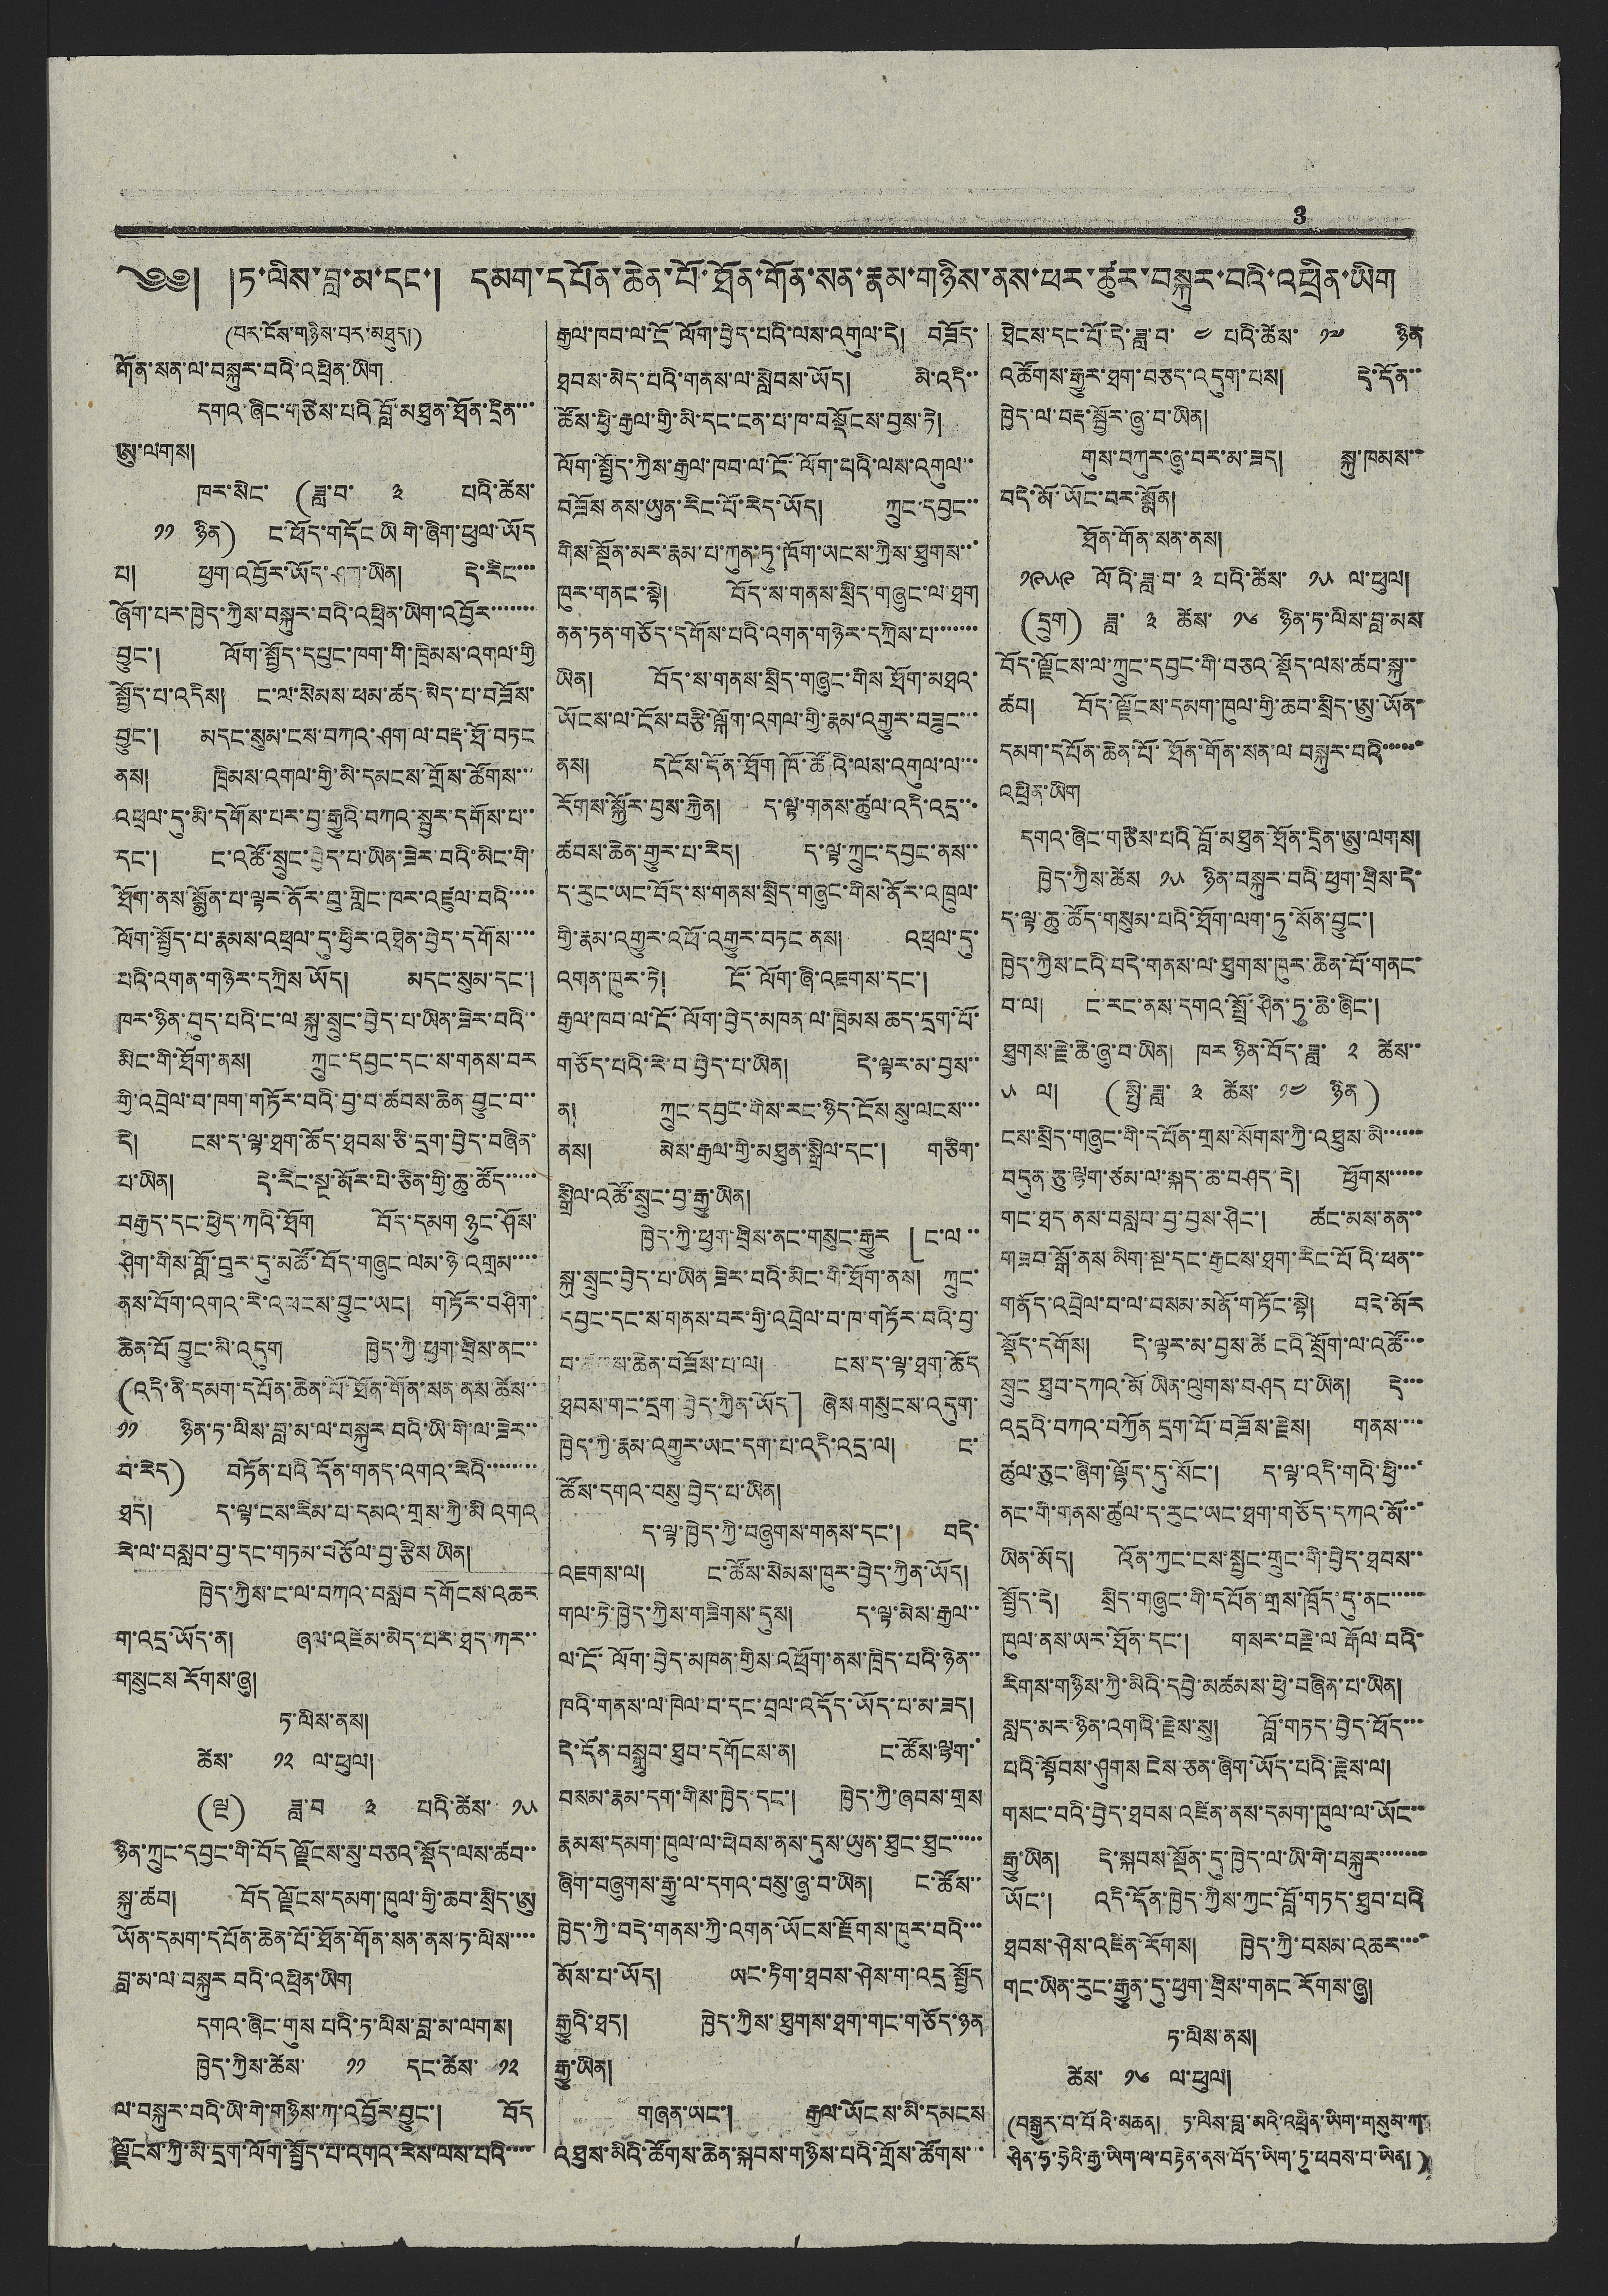3
༄༅། །ཏ་ལིས་བླ་མ་དང་། དམག་དཔོན་ཆེན་པོ་ཐོན་གོན་སན་རྣམ་གཉིས་ནས་ཕར་ཚུར་བསྐུར་བའི་འཕྲིན་ཡིག
(པར་ངོས་གཉིས་པར་མཐུད།)
གོན་སན་ལ་བསྐུར་བའི་འཕྲིན་ཡིག
དགའ་ཞིང་གཙེས་པའི བློ་མཐུན་ཐོན་དྲིན་་་
ཨུ་ལགས།
ཁར་སེང་ (ཟླ་བ་ ༣ པའི་ཚེས་
༡༡ ཉིན) ང་ཕོད་གདོང ཡི གེ་ཞིག་ཕུལ་ཡོད
པ། ཕྱག འབྱོར་ཡོད་ཤག་ཡིན། དེ་རིང་་་
ཞོག་པར་ཁྱེད་ཀྱིས་བསྐུར་བའི་འཕྲིན་ཡིག་འབྱོར་་་་་་་
བྱུང་། ལོག་སྤྱོད་དཔུང་ཁག་གི་ཁྲིམས་འགལ་གྱི
སྤྱོད་པ་འདིས། ང་ལ་སེམས་ཕམ་ཚད་མེད་པ་བཟོས་
བྱུང་། མདང་སུམ་ངས་བཀའ་ཤག་ལ་བརྡ་ཐོ་བཏང
ནས། ཁྲིམས་འགལ་གྱི་མི་དམངས་གྲོས་ཚོགས་་་
འཕྲལ་དུ་མི་དགོས་པར་བྱ་རྒྱུའི་བཀའ་སྦྱར་དགོས་པ་་
དང་། ང་འཚོ་སྲུང་བྱེད་པ་ཡིན་ཟེར་བའི་མིང་གི་
ཐོག་ནས་སྨྱོན་པ་ལྟར་ནོར་བུ་གླིང་ཁར་འཛུལ་བའི་་་་
ལོག་སྤྱོད་པ་རྣམས་འཕྲལ་དུ་ཕྱིར་འཐེན་བྱེད་དགོས་་་་
པའི་འགན་གཉེར་དཀྲིས ཡོད། མདང་སུམ་དང་།
ཁར་ཉིན་བུད་པའི་ང་ལ སྐུ་སྲུང་བྱེད་པ་ཡིན་ཟེར་བའི་་
མིང་གི་ཐོག་ནས། ཀྲུང་དབྱང་དང་ས་གནས་བར
གྱི་འབྲེལ་བ་ཁག་གཏོར་བའི་བྱ་བ་ཚབས་ཆེན བྱུང་བ་་
དེ། ངས་ད་ལྟ་ཐག་ཆོད་ཐབས་ཅི་དྲག་བྱེད་བཞིན་
པ་ཡིན། དེ་རིང་སྔ་མོར་པེ་ཅིན་གྱི་ཆུ་ཚོད་་་་་
བརྒྱད་དང་ཕྱེད་ཀའི་ཐོག བོད་དམག ཉུང་ཤོས་
ཤིག་གིས་གློ་བུར་དུ་མཚོ་བོད་གཞུང་ལམ་ཉེ འགྲམ་་་་
ནས་བོག་འགའ་རེ་འཕངས་བྱུང་ཡང། གཏོར་བཤིག་
ཆེན་པོ བྱུང་མི་འདུག ཁྱེད་ཀྱི་ཕྱག་བྲིས་ནང་་
(འདི་ནི་དམག་དཔོན་ཆེན་པོ་ཐོན་གོན་སན ནས་ཚེས་་
༡༡ ཉིན་ཏ་ལིས་བླ་མ་ལ་བསྐུར བའི་ཡི་གེ་ལ་ཟེར་་
བ་རེད) བཏོན་པའི དོན་གནད་འགའ་རེའི་་་་་་་་
ཐད། ད་ལྟ་ངས་རིམ་པ་དམའ་གྲས་ཀྱི་མི འགའ
རེ་ལ་བསླབ་བྱ་དང་གཏམ་བཅོལ་བྱ་རྩིས་ཡིན།
ཁྱེད་ཀྱིས་ང་ལ་བཀའ་བསླབ་དགོངས་འཆར
ག་འདྲ་ཡོད་ན། ཞལ་འཛེམ་མེད་པར་ཐད་ཀར་་
གསུངས རོགས་ཞུ།
ཏ་ལིས་ནས།
ཚེས་ ༡༢ ལ་ཕུལ།
(ལྔ) ཟླ་བ ༣ པའི་ཚེས་ ༡༥
ཉིན་ཀྲུང་དབྱང་གི་བོད ལྗོངས་སུ་བཅའ་སྡོད་ལས་ཚབ་་
སྐུ་ཚབ། བོད ལྗོངས་དམག་ཁུལ་གྱི་ཆབ་སྲིད་ཨུ
ཡོན་དམག་དཔོན་ཆེན་པོ་ཐོན་གོན་སན་ནས་ཏ་ལིས་་་་
བླ་མ་ལ་བསྐུར བའི་འཕྲིན་ཡིག
དགའ་ཞིང་གུས པའི་ཏ་ལིས་བླ་མ་ལགས།
ཁྱེད་ཀྱིས་ཚེས་ ༡༡ དང་ཚེས་ ༡༢
ལ་བསྐུར་བའི་ཡི་གེ་གཉིས་ཀ་འབྱོར་བྱུང་། བོད
ལྗོངས་ཀྱི་མི་དྲག་ལོག་སྤྱོད་པ་འགའ་རེས་ལས་པའི་་་་
རྒྱལ་ཁབ་ལ་ངོ ལོག་བྱེད་པའི་ལས་འགུལ་དེ། བཟོད་
ཐབས་མེད་པའི་གནས་ལ་སླེབས་ཡོད། མེ་འདི་་
ཚོས་ཕྱི་རྒྱལ་གྱི་མི་དང་ངན་པ་ཁ་བསྡོངས་བྱས་ཏེ།
ལོག་སྤྱོད་ཀྱིས་རྒྱལ་ཁབ་ལ་ངོ་ལོག་པའི་ལས་འགུལ་་
བཟོས ནས་ཡུན་རིང་པོ་རེད་ཡོད། ཀྲུང་དབྱང་་
གིས་སྔོན་མར་རྣམ་པ་ཀུན་ཏུ་ཁོག་ཡངས་ཀྱིས་ཐུགས་་་
ཁུར་གནང་སྟེ། བོད་ས་གནས་སྲིད་གཞུང་ལ་ཐག
ནན་ཏན་གཅོད་དགོས་པའི་འགན་གཉེར་དཀྲིས་པ་་་་་་་
ཡིན། བོད་ས་གནས་སྲིད་གཞུང་གིས ཐོག་མཐའ་
ཡོངས་ལ་ངོས་བརྩི་ལྐོག་འགལ་གྱི་རྣམ་འགྱུར་བཟུང་་་
ནས། དངོས་དོན་ཐོག ཁོ་ཚོའི་ལས་འགུལ་ལ་་་
རོགས་སྐྱོར་བྱས་རྐྱེན། ད་ལྟ་གནས་ཚུལ་འདི་འདྲ་་་
ཚབས་ཆེན་གྱུར་པ་རེད། ད་ལྟ་ཀྲུང་དབྱང་ནས་་
ད་རུང་ཡང་བོད་ས་གནས་སྲིད་གཞུང་གིས་ནོར་འཁྲུལ་
གྱི་རྣམ་འགྱུར་འཕོ་འགྱུར་བཏང ནས། འཕྲལ་དུ་
འགན་ཁུར་ཏེ། ངོ་ལོག་ཞི་འཇགས་དང་།
རྒྱལ་ཁབ་ལ་ངོ་ལོག་བྱེད་མཁན་ལ་ཁྲིམས ཆད་དྲག་པོ་
གཅོད་པའི་རེ་བ བྱེད་པ་ཡིན། དེ་ལྟར་མ་བྱས་་
ན། ཀྲུང་དབྱང་གིས་རང་ཉིད་ངོས་སུ་ལངས་་་
ནས། མེས་རྒྱལ་གྱི་མཐུན་སྒྲིལ་དང་། གཅིག་
སྒྲིལ་འཚོ་སྲུང་བྱ་རྒྱུ་ཡིན།
ཁྱེད་ཀྱི་ཕྱག་བྲིས་ནང་གསུང་རྒྱུར 「ང་ལ་་
སྐུ་སྲུང་བྱེད་པ་ཡིན ཟེར་བའི་མིང་གི་ཐོག་ནས། ཀྲུང་
དབྱང་དང་ས་གནས་བར་གྱི་འབྲེལ་བ་ཁ་གཏོར་བའི་བྱ་
བ་ཚབས་ཆེན་བཟོས་པ་ལ། ངས་ད་ལྟ་ཐག་ཆོད
ཐབས་གང་དྲག་བྱེད་ཀྱིན་ཡོད」 ཞེས་གསུངས་འདུག་
ཁྱེད་ཀྱི་རྣམ་འགྱུར་ཡང་དག་པ་འདི་འདྲ་ལ། ང་
ཚོས་དགའ་བསུ་བྱེད་པ་ཡིན།
ད་ལྟ་ཁྱེད་ཀྱི་བཞུགས་གནས་དང་། བདེ་
འཇགས་ལ། ང་ཚོས་སེམས་ཁུར་བྱེད་ཀྱིན་ཡོད།
གལ་ཏེ་ཁྱེད་ཀྱིས་གཟིགས་དུས། ད་ལྟ་མེས་རྒྱལ་་
ལ་ངོ་ལོག་བྱེད་མཁན་གྱིས་འཕྲོག་ནས་ཁྲིད་པའི་ཉེན་་
ཁའི་གནས་ལ་ཁེལ་བ་དང་བྲལ་འདོད་ཡོད་པ་མ་ཟད།
དེ་དོན་བསྒྲུབ་ཐུབ་དགོངས་ན། ང་ཚོས་ལྷག་་
བསམ་རྣམ་དག་གིས་ཁྱེད་དང་། ཁྱེད་ཀྱི་ཞབས་གྲས
རྣམས་དམག་ཁུལ་ལ་ཕེབས་ནས་དུས་ཡུན་ཐུང་ཐུང་་་་་
ཞིག་བཞུགས་རྒྱུ་ལ་དགའ་བསུ་ཞུ་བ་ཡིན། ང་ཚོས་་
ཁྱེད་ཀྱི་བདེ་གནས་ཀྱི་འགན་ཡོངས་རྫོགས་ཁུར་བའི་་་
མོས་པ་ཡོད། ཡང་ཏིག་ཐབས་ཤེས་ག་འདྲ སྤྱོད
རྒྱུའི་ཐད། ཁྱེད་ཀྱིས་ཐུགས་ཐག་གང་གཅོད་ཉན
རྒྱུ་ཡིན།
གཞན་ཡང་། རྒྱལ་ཡོངས་མི་དམངས
འཐུས་མིའི་ཚོགས་ཆེན་སྐབས་གཉིས་པའི་གྲོས་ཚོགས་་་
ཐེངས་དང་པོ་དེ་ཟླ་བ་ ༤ པའི་ཚེས་ ༡༧ ཉིན
འཚོགས་རྒྱུར་ཐག་བཅད་འདུག་པས། དེ་དོན་་
ཁྱེད་ལ་བརྡ་སྦྱོར་ཞུ་བ་ཡིན།
གུས་བཀུར་ཞུ་བར་མ་ཟད། སྐུ་ཁམས་་
བདེ་མོ་ཡོང་བར་སྨོན།
ཐོན་གོན་སན་ནས།
༡༩༥༩ ལོའི་ཟླ་བ་ ༣ པའི་ཚེས་ ༡༥ ལ་ཕུལ།
(དྲུག) ཟླ་ ༣ ཚེས་ ༡༦ ཉིན་ཏ་ལིས་བླ་མས
བོད་ལྗོངས་ལ་ཀྲུང་དབྱང་གི་བཅའ་སྡོད་ལས་ཚབ་སྐུ་་
ཚབ། བོད་ལྗོངས་དམག་ཁུལ་གྱི་ཆབ་སྲིད་ཨུ་ཡོན་
དམག་དཔོན་ཆེན་པོ་ཐོན་གོན་སན་ལ བསྐུར་བའི་་་་་་
འཕྲིན་ཡིག
དགའ་ཞིང་གཙེས་པའི བློ་མཐུན་ཐོན་དྲིན་ཨུ་ལགས།
ཁྱེད་ཀྱིས་ཚེས ༡༥ ཉིན་བསྐུར་བའི་ཕྱག་བྲིས་དེ་
ད་ལྟ་ཆུ་ཚོད་གསུམ་པའི་ཐོག་ལག་ཏུ་སོན་བྱུང་།
ཁྱེད་ཀྱིས་ངའི་བདེ་གནས་ལ་ཐུགས་ཁུར་ཆེན་པོ་གནང་
བ་ལ། ང་རང་ནས་དགའ་སྤྲོ་ཤིན་ཏུ་ཆེ་ཞིང་།
ཐུགས་རྗེ་ཆེ་ཞུ་བ་ཡིན། ཁར ཉིན་བོད་ཟླ་ ༢ ཚེས་་
༥ ལ། ( སྤྱི་ཟླ་ ༣ ཚེས་ ༡༤ ཉིན )
ངས་སྲིད་གཞུང་གི་དཔོན་གྲས་སོགས་ཀྱི་འཐུས་མི་་་་་་
བདུན་ཅུ་ལྷག་ཙམ་ལ་སྐད་ཆ་བཤད་དེ། ཕྱོགས་་་་་
གང་ཐད ནས་བསླབ་བྱ་བྱས་ཤིང་། ཚང་མས་ནན་་
གཟབ་སྒོ་ནས མིག་སྔ་དང་རྒྱངས་ཐག་རིང་པོའི་ཕན་་
གནོད་འབྲེལ་བ་ལ་བསམ་མནོ་གཏོང་སྟེ། བདེ་མོར
སྡོད་དགོས། དེ་ལྟར་མ་བྱས་ཚེ ངའི་སྲོག་ལ་འཚོ་་་
སྲུང ཐུབ་དཀའ་མོ ཡིན་ལུགས་བཤད པ་ཡིན། དེ་་་
འདྲའི་བཀའ་བཀྱོན དྲག་པོ་བཟོས་རྗེས། གནས་་་་
ཚུལ་ཅུང་ཞིག་ལྷོད་དུ་སོང་། ད་ལྟ་འདི་གའི་ཕྱི་་་་
ནང་གི་གནས་ཚུལ་ད་རུང་ཡང་ཐག་གཅོད་དཀའ་མོ་་་
ཡིན་མོད། འོན་ཀྱང་ངས་སྤྱང་གྲུང་གི་བྱེད་ཐབས་་
སྤྱོད་དེ། སྲིད་གཞུང་གི་དཔོན་གྲས་ཁྲོད་དུ་ནང་་་་་
ཁུལ་ནས་ཡར་ཐོན་དང་། གསར་བརྗེ་ལ རྒོལ་བའི་
རིགས་གཉིས་ཀྱི་མིའི་དབྱེ་མཚམས་ཕྱེ་བཞིན་པ་ཡིན།
སླད་མར་ཉིན་འགའི་རྗེས་སུ། བློ་གཏད་བྱེད་ཕོད་་་
པའི་སྟོབས་ཤུགས ངེས་ཅན་ཞིག་ཡོད་པའི་རྗེས་ལ།
གསང་བའི་བྱེད་ཐབས་འཛིན་ནས་དམག་ཁུལ་ལ་ཡོང་་
རྒྱུ་ཡིན། དེ་སྐབས་སྔོན་དུ་ཁྱེད་ལ་ཡི་གེ་བསྐུར་་་་་་་
ཡོང་། འདི་དོན་ཁྱེད་ཀྱིས་ཀྱང་བློ་གཏད་ཐུབ་པའི
ཐབས་ཤེས་འཛིན་རོགས། ཁྱེད་ཀྱི་བསམ་འཆར་་་་
གང་ཡིན་རུང་རྒྱུན་དུ་ཕྱག་བྲིས་གནང་རོགས་ཞུ།
ཏ་ལིས་ནས།
ཚེས་ ༡༦ ལ་ཕུལ།
(བསྒྱུར་བ་པོའི་མཆན། ཏ་ལིས་བླ་མའི་འཕྲིན་ཡིག་གསུམ་ཀ་
ཤིན་ཧྭ་ཧྲེའི་རྒྱུ་ཡིག་ལ་བརྟེན་ནས་བོད་ཡིག་ཏུ་ཕབས་པ་ཡིན།)
